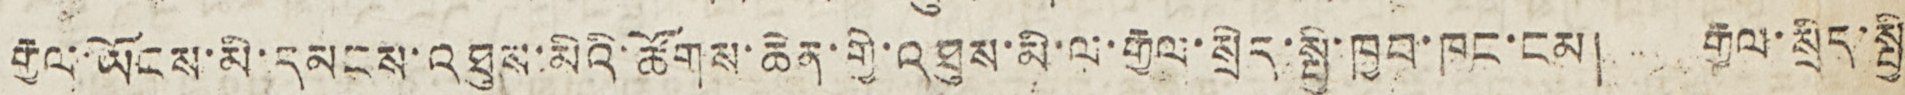རྒྱལ་ཡོངས་མི་དམངས་འཐུས་མིའི་ཚོགས་ཆེན་གྱི་འཐུས་མི་ལ་རྒྱལ་སྲིད་སྤྱི་ཁྱབ་ཁང་ངམ། རྒྱལ་སྲིད་སྤྱི
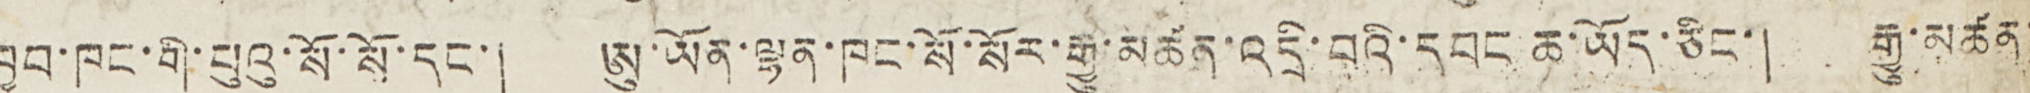ཁྱབ་ཁང་གི་པུའུ་སོ་སོ་དང་། ཨུ་ཡོན་ལྷན་ཁང་སོ་སོར་རྒྱུ་མཚན་འདྲི་བའི་དབང ཆ་ཡོད་ཅིང་། རྒྱུ་མཚན་་
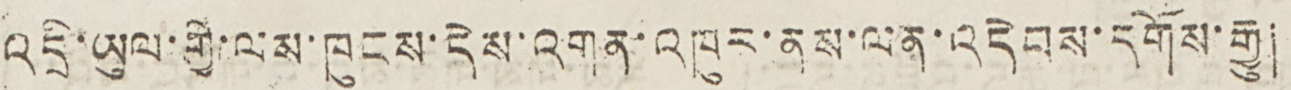འདྲི་ཡུལ་གྱི་ལམ་ཁུངས་དེས་འགན་འཁུར་ནས་ལན་འདེབས་དགོས་རྒྱུ།
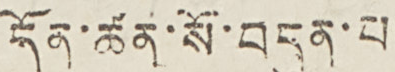དོན་ཚན་སོ་བདུན་པ།
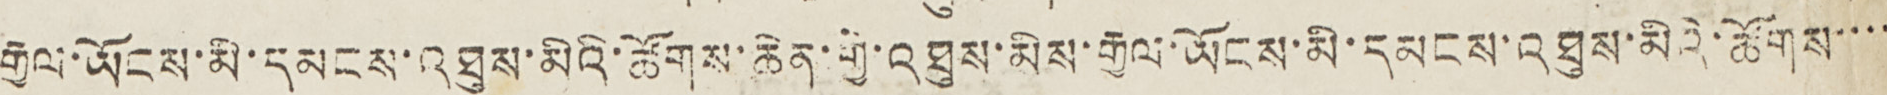རྒྱལ་ཡོངས་མི་དམངས་འཐུས་མིའི་ཚོགས་ཆེན་གྱི་འཐུས་མིས་རྒྱལ་ཡོངས་མི་དམངས་འཐུས་མིའི་ཚོགས་་་་
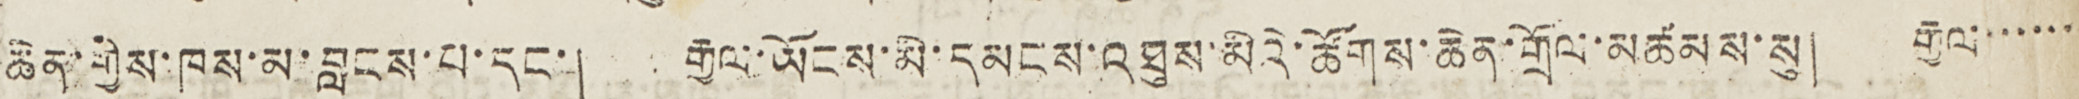ཆེན་གྱིས་ཁས་མ་བླངས་པ་དང་། རྒྱལ་ཡོངས་མི་དམངས་འཐུས་མིའི་ཚོགས་ཆེན་གྲོལ་མཚམས་སུ། རྒྱལ་་་་་་
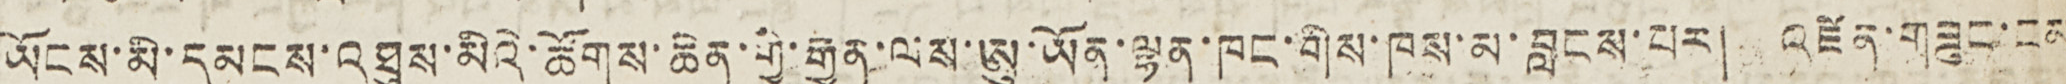ཡོངས་མི་དམངས་འཐུས་མིའི་ཚོགས་ཆེན་གྱི་རྒྱུན་ལས་ཨུ་ཡོན་ལྷན་ཁང་གིས་ཁས་མ་བླངས་པར། འཛིན་གཟུངས་ངམ
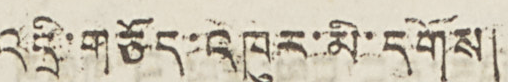འདྲི་གཅོད་འཁུར་མི་དགོས།
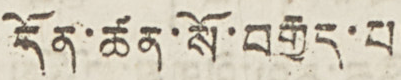དོན་ཚན་སོ་བརྒྱད་པ།
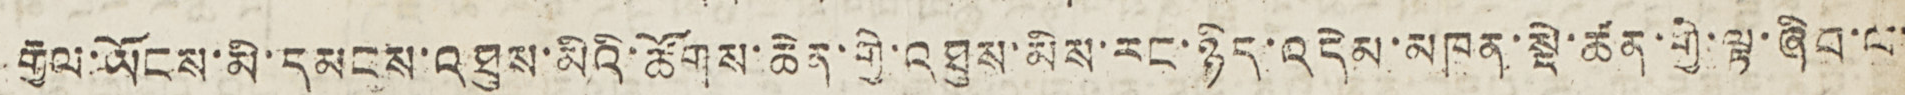རྒྱལ་ཡོངས་མི་དམངས་འཐུས་མིའི་ཚོགས་ཆེན་གྱི་འཐུས་མིས་རང་ཉིད་འདེམ་མཁན་སྡེ་ཚན་གྱི་ལྟ་ཞིབ་ལ་
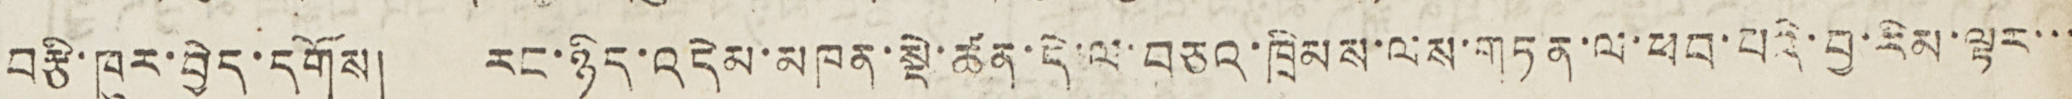བརྩི་ཁུར་བྱེད་དགོས། རང་ཉིད་འདེམ་མཁན་སྡེ་ཚན་དེ་ལ་བཅའ་ཁྲིམས་ལས་གཏན་ལ་ཕབ་པའི་བྱ་རིམ་ལྟར་་་
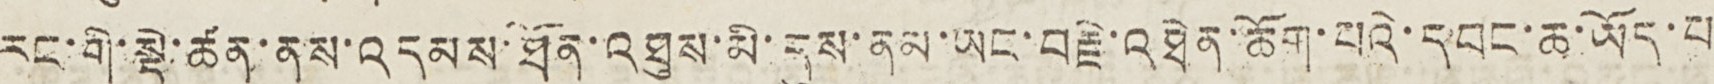རང་གི་སྡེ་ཚན་ནས་འདམས་ཐོན་འཐུས་མི་དུས་ནམ་ཡང་བརྗེ་འཐེན་ཆོག་པའི་དབང་ཆ་ཡོད་པ།
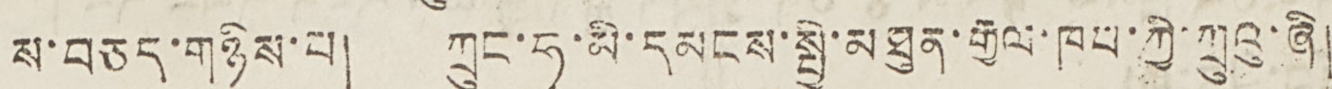ས་བཅད་གཉིས་པ། ཀྲུང་ཧྭ་མི་དམངས་སྤྱི་མཐུན་རྒྱལ་ཁབ་ཀྱི་ཀྲུའུ་ཞི།
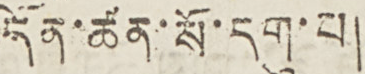དོན་ཚན་སོ་དགུ་པ།
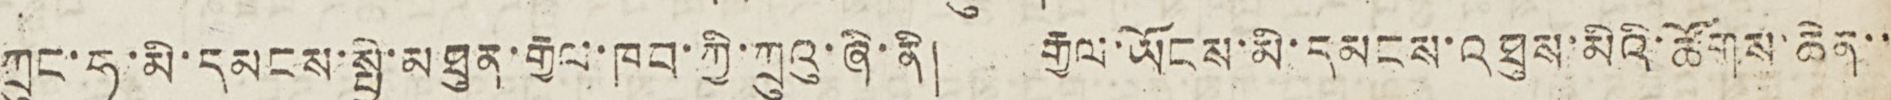ཀྲུང་ཧྭ་མི་དམངས་སྤྱི་མཐུན་རྒྱལ་ཁབ་ཀྱི་ཀྲུའུ་ཞི་ནི། རྒྱལ་ཡོངས་མི་དམངས་འཐུས་མིའི་ཚོགས་ཆེན་་་
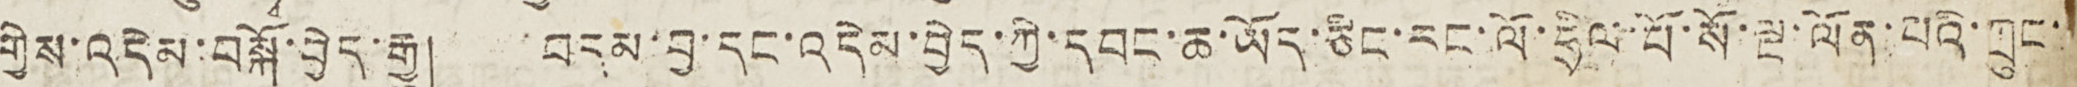གྱིས་འདེམ་བསྐོ་བྱེད་རྒྱུ། བདམ་བྱ་དང་འདེམ་བྱེད་ཀྱི་དབང་ཆ་ཡོད་ཅིང་རང་ལོ་ཧྲིལ་པོ་སོ་ལྔ་ལོན་པའི་ཀྲུང་་
